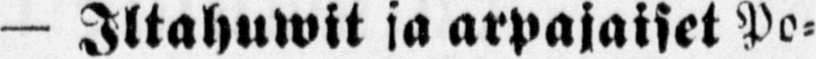— Iltahuwit ja arpajaiset Po-
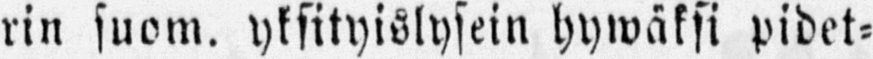rin suom. yksityislysein hywäksi pidet-
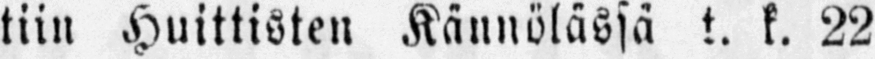tiin Huittisten Kännölässa t. k. 22
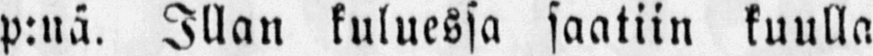p:nä. Illan kuluessa saatiin kuulla
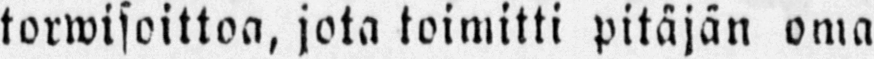torwisoittoa, jota toimitti pitäjän oma
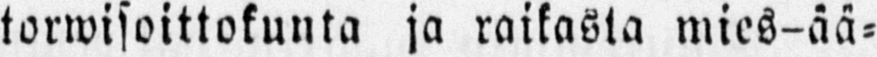torwisoittokunta ja raikasta mies-ää-
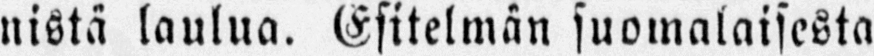nistä laulua. Esitelmän suomalaisesta
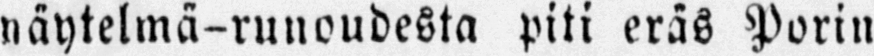näytelmä-runoudesta piti eräs Porin
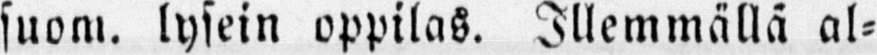suom, lysein oppilas. Illemmällä al-
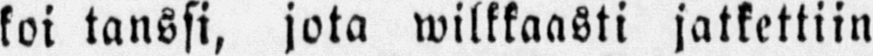koi tanssi, jota wilkkaasti jatkettiin
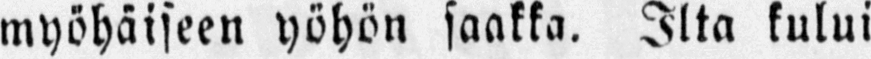myöhäiseen yöhön saakka. Ilta kului
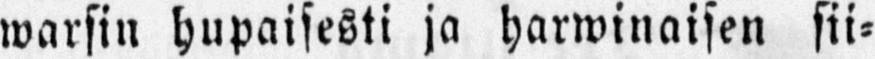warsin hupaisesti ja harwinaisen sii-
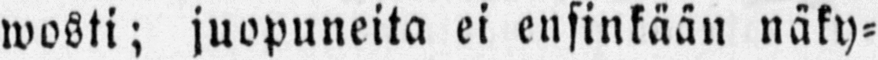wosti; juopuneita ei ensinkään näky-
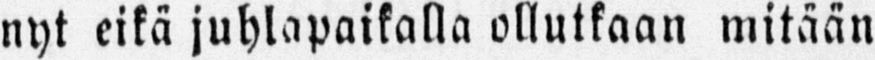nyt eikä juhlapaikalla ollutkaan mitään
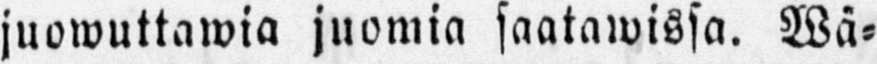juowuttawia juomia saatawissa. Wä-
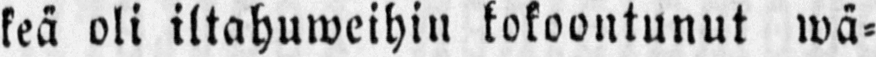keä oli iltahuweihin kokoontunut wä-
